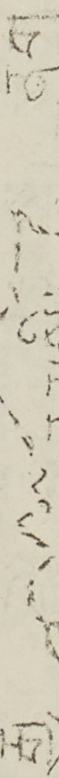རྒྱ་ནག་
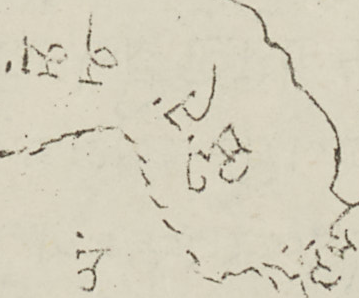ལྷོ་ཝི་ཊ་ནམ་
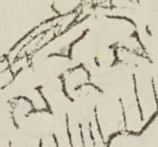ལའོ་སེ་
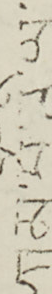ཀམ་པོ་ཊི་ཡ་
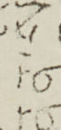ནན་སི་
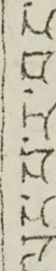ལུང་པ་ར་བཱང་
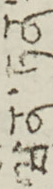ཝིན་ཏན་
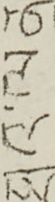ཐའི་ལནྜ་
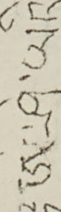༈ ཨེ་ཤེ་ཡའི་
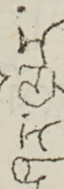ཤར་ལྷོར་
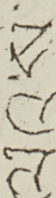ལའོ་སེ་
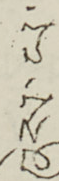ཞེས་པ་
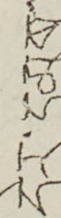དེར་དམག་
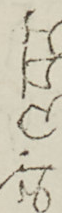མེ་འབར་
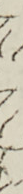མུས་སུ་
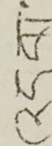འདུག་
